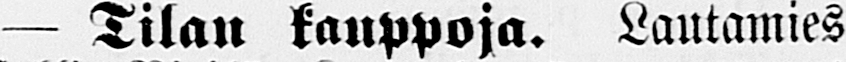— Tilan kauppoja. Lautamies
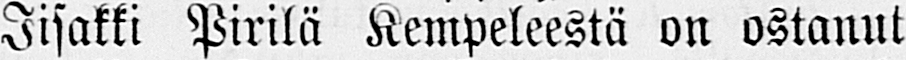Iisakki Pirilä Kempeleestä on ostanut
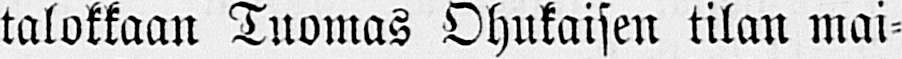tulokkaan Tuomas Ohukaisen tilan mai-
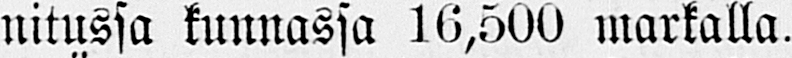nitussa kunnassa 16,500 markalla.
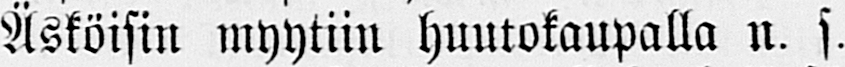Äsköisin myytiin huutokaupalla n. s.
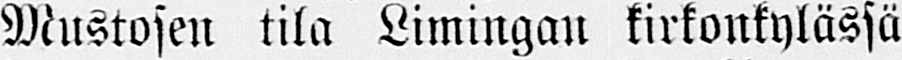Mustosen tila Limingan kirkonkylässä
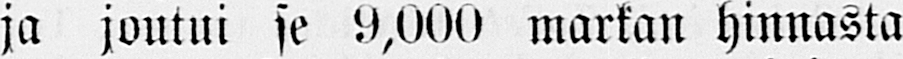ja joutui se 9,000 markan hinnasta
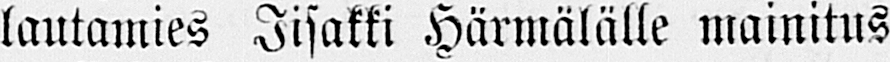lautamies Iisakki Härmälälle mainitus-
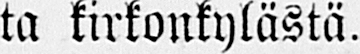ta kirkonkylästä.
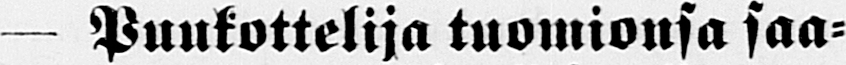— Puukottelija tuomionsa saa-
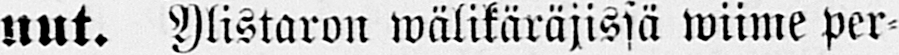nut. Ylistaron wälikäräjissä wiime per-
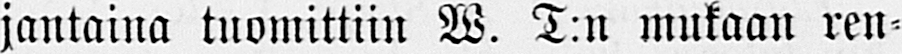jantaina tuomittiin W. T:n mukaan ren-
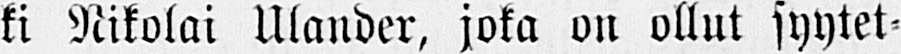ki Nikolai Ulander, joka on ollut syytet-
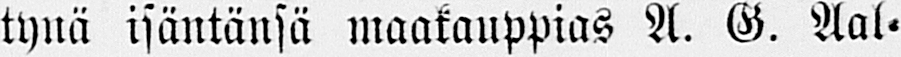tynä isäntänsä maakauppias A. G. Aal-
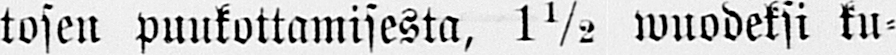tosen puukottamisesta, 1½ wuodeksi ku-
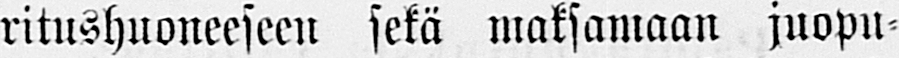ritushuoneeseen sekä maksamaan juopu-
